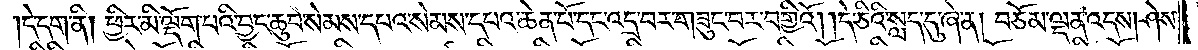དེ་དག་ནི། ཕྱིར་མི་ལྡོག་པའི་བྱང་ཆུབ་སེམས་དཔའ་སེམས་དཔའ་ཆེན་པོ་དང་འདྲ་བར་གཟུང་བར་བགྱིའོ། །དེ་ཅིའི་སླད་དུ་ཞེ་ན། བཅོམ་ལྡན་འདས། ཤེས་
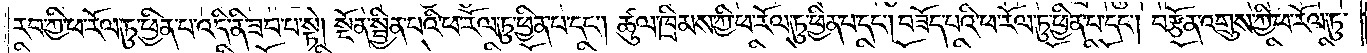རབ་ཀྱི་ཕ་རོལ་ཏུ་ཕྱིན་པ་འདི་ནི་ཟབ་པ་སྟེ། སྔོན་སྦྱིན་པའི་ཕ་རོལ་ཏུ་ཕྱིན་པ་དང༌། ཚུལ་ཁྲིམས་ཀྱི་ཕ་རོལ་ཏུ་ཕྱིན་པ་དང༌། བཟོད་པའི་ཕ་རོལ་ཏུ་ཕྱིན་པ་དང༌། བརྩོན་འགྲུས་ཀྱི་ཕ་རོལ་ཏུ་
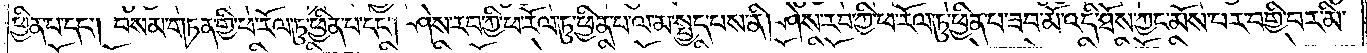ཕྱིན་པ་དང༌། བསམ་གཏན་གྱི་ཕ་རོལ་ཏུ་ཕྱིན་པ་དང༌། ཤེས་རབ་ཀྱི་ཕ་རོལ་ཏུ་ཕྱིན་པ་ལ་མ་སྤྱད་པས་ནི། ཤེས་རབ་ཀྱི་ཕ་རོལ་ཏུ་ཕྱིན་པ་ཟབ་མོ་འདི་ཐོས་ཀྱང་མོས་པར་བགྱི་བར་མི་
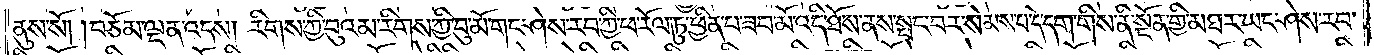ནུས་སོ། །བཅོམ་ལྡན་འདས། རིགས་ཀྱི་བུའམ་རིགས་ཀྱི་བུ་མོ་གང་ཤེས་རབ་ཀྱི་ཕ་རོལ་ཏུ་ཕྱིན་པ་ཟབ་མོ་འདི་ཐོས་ནས་སྤང་བར་སེམས་པ་དེ་དག་གིས་ནི་སྔོན་གྱི་མཐར་ཡང་ཤེས་རབ་
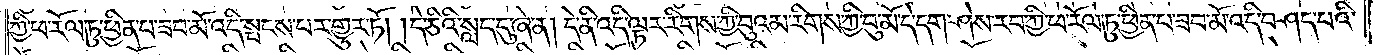ཀྱི་ཕ་རོལ་ཏུ་ཕྱིན་པ་ཟབ་མོ་འདི་སྤངས་པར་གྱུར་ཏོ། །དེ་ཅིའི་སླད་དུ་ཞེ་ན། དེ་ནི་འདི་ལྟར་རིགས་ཀྱི་བུའམ་རིགས་ཀྱི་བུ་མོ་དེ་དག་ཤེས་རབ་ཀྱི་ཕ་རོལ་ཏུ་ཕྱིན་པ་ཟབ་མོ་འདི་བཤད་པའི་
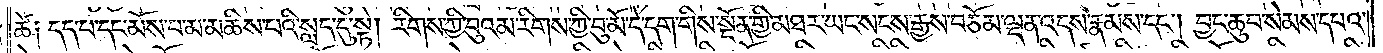ཚེ༑ དད་པ་དང་མོས་པ་མ་མཆིས་པའི་སླད་དུ་སྟེ། རིགས་ཀྱི་བུའམ་རིགས་ཀྱི་བུ་མོ་དེ་དག་གིས་སྔོན་གྱི་མཐར་ཡང་སངས་རྒྱས་བཅོམ་ལྡན་འདས་རྣམས་དང༌། བྱང་ཆུབ་སེམས་དཔའ་
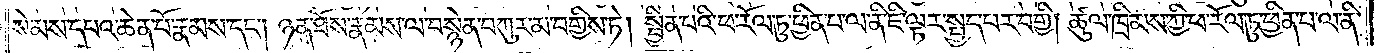སེམས་དཔའ་ཆེན་པོ་རྣམས་དང༌། ཉན་ཐོས་རྣམས་ལ་བསྙེན་བཀུར་མ་བགྱིས་ཏེ། སྦྱིན་པའི་ཕ་རོལ་ཏུ་ཕྱིན་པ་ལ་ནི་ཇི་ལྟར་སྤྱད་པར་བགྱི། ཚུལ་ཁྲིམས་ཀྱི་ཕ་རོལ་ཏུ་ཕྱིན་པ་ལ་ནི་
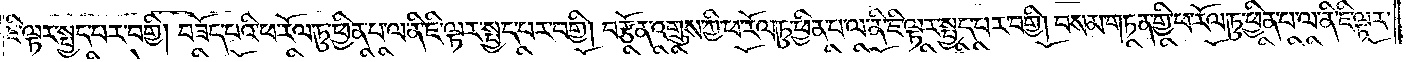ཇི་ལྟར་སྤྱད་པར་བགྱི། བཟོད་པའི་ཕ་རོལ་ཏུ་ཕྱིན་པ་ལ་ནི་ཇི་ལྟར་སྤྱད་པར་བགྱི། བརྩོན་འགྲུས་ཀྱི་ཕ་རོལ་ཏུ་ཕྱིན་པ་ལ་ནི་ཇི་ལྟར་སྤྱད་པར་བགྱི། བསམ་གཏན་གྱི་ཕ་རོལ་ཏུ་ཕྱིན་པ་ལ་ནི་ཇི་ལྟར་
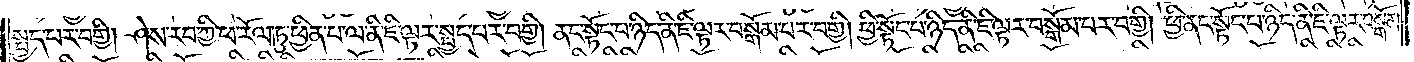སྤྱད་པར་བགྱི། ཤེས་རབ་ཀྱི་ཕ་རོལ་ཏུ་ཕྱིན་པ་ལ་ནི་ཇི་ལྟར་སྤྱད་པར་བགྱི། ནང་སྟོང་པ་ཉིད་ནི་ཇི་ལྟར་བསྒོམ་པར་བགྱི། ཕྱི་སྟོང་པ་ཉིད་ནི་ཇི་ལྟར་བསྒོམ་པར་བགྱི། ཕྱི་ནང་སྟོང་པ་ཉིད་ནི་ཇི་ལྟར་བསྒོམ་
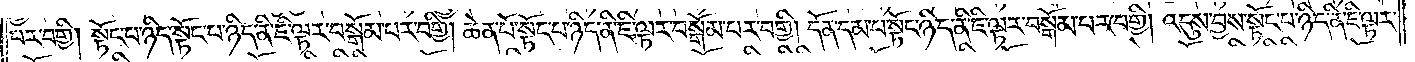པར་བགྱི། སྟོང་པ་ཉིད་སྟོང་པ་ཉིད་ནི་ཇི་ལྟར་བསྒོམ་པར་བགྱི། ཆེན་པོ་སྟོང་པ་ཉིད་ནི་ཇི་ལྟར་བསྒོམ་པར་བགྱི། དོན་དམ་པ་སྟོང་པ་ཉིད་ནི་ཇི་ལྟར་བསྒོམ་པར་བགྱི། འདུས་བྱས་སྟོང་པ་ཉིད་ནི་ཇི་ལྟར་
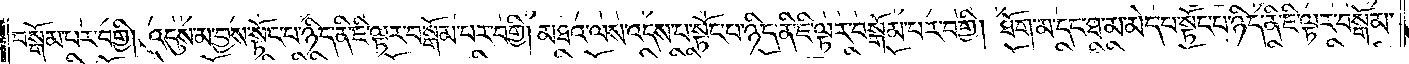བསྒོམ་པར་བགྱི། འདུས་མ་བྱས་སྟོང་པ་ཉིད་ནི་ཇི་ལྟར་བསྒོམ་པར་བགྱི། མཐའ་ལས་འདས་པ་སྟོང་པ་ཉིད་ནི་ཇི་ལྟར་བསྒོམ་པར་བགྱི། ཐོག་མ་དང་ཐ་མ་མེད་པ་སྟོང་པ་ཉིད་ནི་ཇི་ལྟར་བསྒོམ་
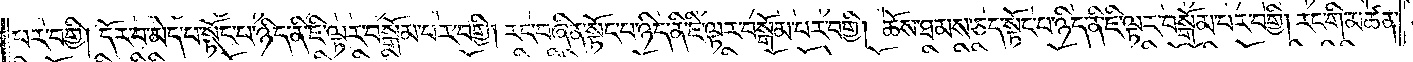པར་བགྱི། དོར་བ་མེད་པ་སྟོང་པ་ཉིད་ནི་ཇི་ལྟར་བསྒོམ་པར་བགྱི། རང་བཞིན་སྟོང་པ་ཉིད་ནི་ཇི་ལྟར་བསྒོམ་པར་བགྱི། ཆོས་ཐམས་ཅད་སྟོང་པ་ཉིད་ནི་ཇི་ལྟར་བསྒོམ་པར་བགྱི། རང་གི་མཚན་
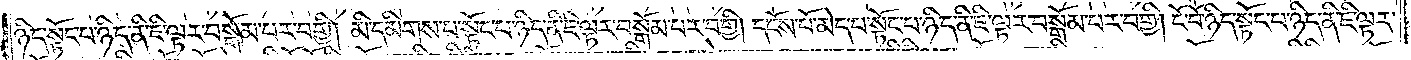ཉིད་སྟོང་པ་ཉིད་ནི་ཇི་ལྟར་བསྒོམ་པར་བགྱི། མི་དམིགས་པ་སྟོང་པ་ཉིད་ནི་ཇི་ལྟར་བསྒོམ་པར་བགྱི། དངོས་པོ་མེད་པ་སྟོང་པ་ཉིད་ནི་ཇི་ལྟར་བསྒོམ་པར་བགྱི། ངོ་བོ་ཉིད་སྟོང་པ་ཉིད་ནི་ཇི་ལྟར་
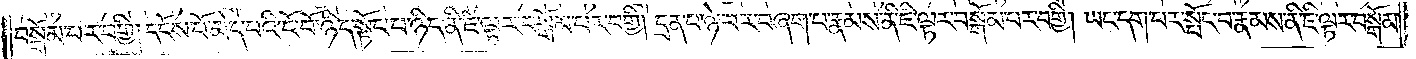བསྒོམ་པར་བགྱི། དངོས་པོ་མེད་པའི་ངོ་བོ་ཉིད་སྟོང་པ་ཉིད་ནི་ཇི་ལྟར་བསྒོམ་པར་བགྱི། དྲན་པ་ཉེ་བར་བཞག་པ་རྣམས་ནི་ཇི་ལྟར་བསྒོམ་པར་བགྱི། ཡང་དག་པར་སྤོང་བ་རྣམས་ནི་ཇི་ལྟར་བསྒོམ་
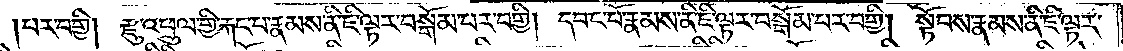པར་བགྱི། རྫུ་འཕྲུལ་གྱི་རྐང་པ་རྣམས་ནི་ཇི་ལྟར་བསྒོམ་པར་བགྱི། དབང་པོ་རྣམས་ནི་ཇི་ལྟར་བསྒོམ་པར་བགྱི། སྟོབས་རྣམས་ནི་ཇི་ལྟར་
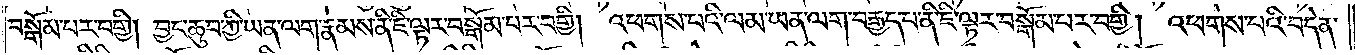བསྒོམ་པར་བགྱི། བྱང་ཆུབ་ཀྱི་ཡན་ལག་རྣམས་ནི་ཇི་ལྟར་བསྒོམ་པར་བགྱི། འཕགས་པའི་ལམ་ཡན་ལག་བརྒྱད་པ་ནི་ཇི་ལྟར་བསྒོམ་པར་བགྱི། འཕགས་པའི་བདེན་
